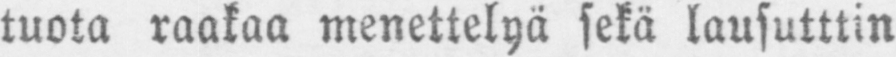tuota raakaa menettelyä sekä lausutttin
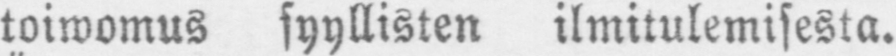toiwomus syyllisten ilmitulemisesta.
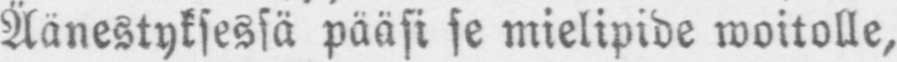Äänestyksessä pääsi se mielipide woitolle,
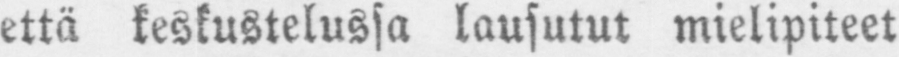että keskustelussa lausutut mielipiteet
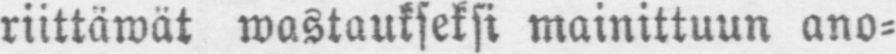riittäwät wastaukseksi mainittuun ano-
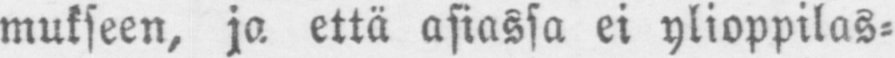mukseen, ja että asiassa ei ylioppilas-
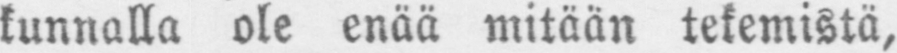kunnalla ole enää mitään tekemistä,
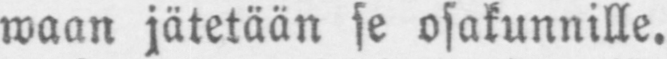waan jätetään se osakunnille.
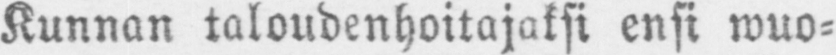Kunnan taloudenhoitajaksi ensi wuo-
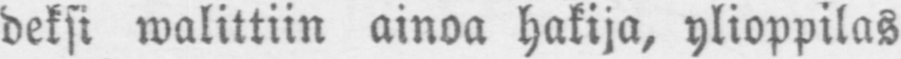deksi walittiin ainoa hakija, ylioppilas
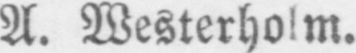A. Westerholm.
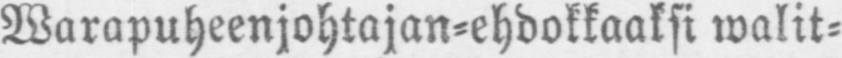Warapuheenjohtajan-ehdokkaaksi walit-
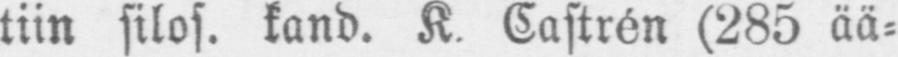tiin filos. kand. K. Castrén (285 ää-
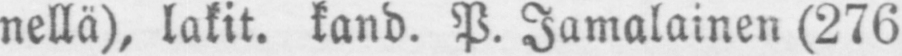nellä), lakit. kand. P. Jamalainen (276
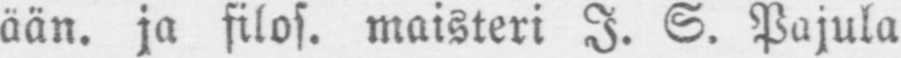ään. ja filos. maisteri I. S. Pajula
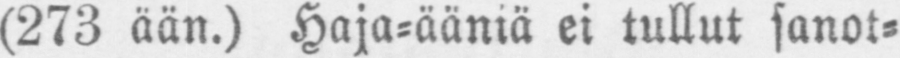(273 ään.) Haja-ääniä ei tullut sanot-
